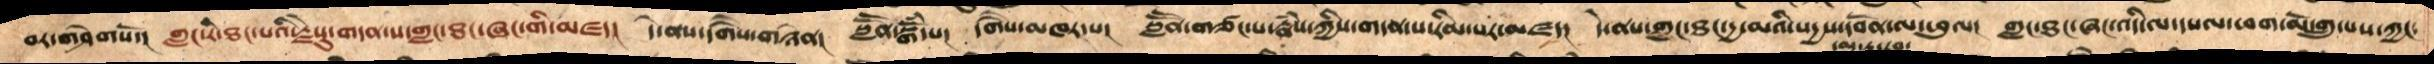བར་གཤེགསོ་།  གླང་རི་ཐང་པའི་རྗེསུ་གདན་ས་གླང་ཐང་ཞང་གི་མཛད།  དེ་ནས་དགཻས་གཉེན།  སླཽན་སྒོཾ་པ། དགཻས་མཁར་པ།  སླཽན་གཙང་པ་རྣཾས་ཀྱིས་གདན་ས་རིམ་པར་མཛད།  དེ་ནས་གླང་ཐང་དྱ་མའི་སདྱས་དབོན་ལ་ཕུལ།  གླང་ཐང་ཞང་འདི་ལ་དཔལ་ཕག་མོ་གྲུ་པས་ཀྱང་
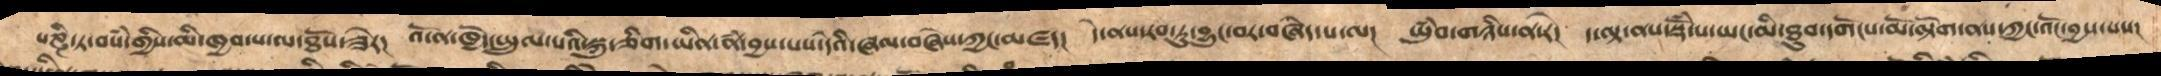པཎྜི་ཏ་བསཾ་གྱིས་མི་ཁྱབ་པ་ལ་ཐོས་ཟེར།  འོ་ན་ཁྱོད་སྤྲུལ་པའི་སྐུ་ཅིག་ཡིན་ནཾ་བྱས་པས་དེའི་ཞལ་བཞེས་ཀྱང་མཛད།  དེ་ནས་རབ་ཏུ་བྱུང་བཞེད་པ་ལ།  ཡུཾབ་གཉིས་ན་རེ།  ད་ལྟ་ནས་སྡོཾ་པ་ཡང་མི་ཐུབ་དགོངས་མོ་ལྟོག་ནས་ཀྱང་འོང་བྱས་པས།
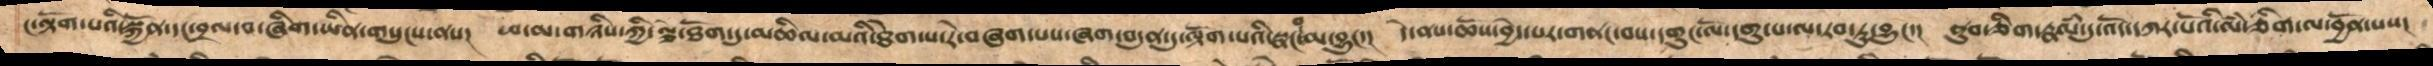ང་ལྟོག་པའི་སྐྱོན་དང་བྲལ་བ་ཞིག་ཡིན་གསུངས་ནས།  ཕ་མ་གཉིས་ཀྱི་ལྕེ་ཐོག་དུ་མཆིལ་མའི་ཐེག་པ་རེ་བཞག་པས་ཞག་བདུན་དུ་ལྟོག་པའི་སྣང་བ་མ་བྱུང་། དེ་ནས་ཆོས་བྱེད་པར་གནང་བས་དགུང་ལོ་དགུ་པ་ལ་རབ་ཏུ་བྱུང་། ནུབ་ཅིག་རྣལཾ་དུ་འོད་དཀར་པོའི་ལཾ་ཅིག་ལ་བྱོན་པས།
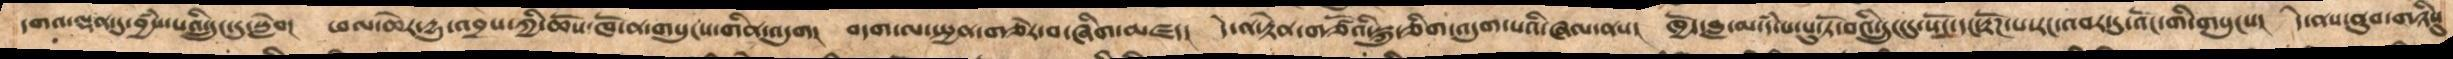དགའ་ལྡན་དུ་བྱཾས་པའི་དྲུང་དུ་སླེབ།  ཕལ་ཆེར་དྱུ་འབྲས་ཀྱི་ཆོས་ཁོ་ན་གསུངས་གིན་འདུག  བདག་ལ་སྤྱན་གཅེར་བ་ཞིག་མཛད།  དེ་ན་རྟེན་གཙོའི་སྐུ་ཅིག་འདུག་པའི་ཞལ་ནས།  ཁྱོད་བླ་མ་དཾ་པ་པུ་ཏོ་བའི་དྲུང་དུ་སོང་དང་རྟོཌ་པ་རང་འབར་དུ་འོང་གི་གསུངས།  དེ་ནས་ནུབ་གཉིསུ་
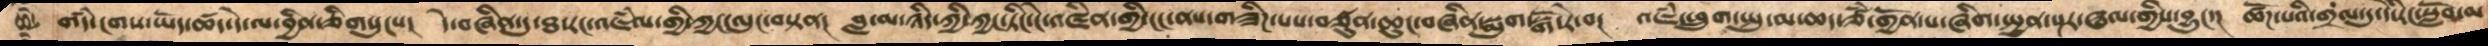གདཾ་ངགས་ཡོད་ཚད་དེ་ལ་བྱིན་ཅིགསུངས།  དེ་བཞིན་དུ་ཐ་རང་འཇཾལ་གྱི་ཀྱང་ལུང་བསྟན། བླ་མ་ཉིད་ཀྱི་ཀྱང་ཏིང་ངེ་འཛིན་གྱི་ངང་ནས་གཟིཌ་པས་བཙུན་ཆུང་བཞིན་སྨུག་སྒོ་རེ་བ།  འཇཾ་ཕྲུག་སྤུ་མ་ཆད་ཙཾ་གྱོན་པ་ཞིག་སྤྱན་སྔར་ཝལ་གྱིས་བྱུང་།  ཚོཌ་པའི་གྲལ་དུ་དེ་རིང་སློབ་མ
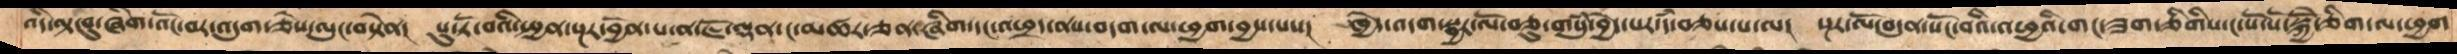འདི་ལྟ་བུ་ཞིག་འོང་བར་འདུག་ཅེས་ལུང་བསྟེན།  པུ་ཏོ་བའི་སྤྱན་སྔར་བྱོན་པ་ན་ཇོ་ལྡན་ང་མཚར་ཅན་ཞིག་དང་འཕྲད་ནས་བདག་ལ་ཕྱག་བྱས་པས།  ཁྱེད་འདག་སྦྱར་ལོ་བཅུ་གསུཾ་བྱེད་པར་དམ་བཅས་པ་ལ།  སྔར་ལོ་བདུན་སོང་བའི་འཕྱའི་གང་ཟག་ཅིགིས་ང་སོ་སོ་སྐྱེོ་ཅིག་ལ་ཕྱག་
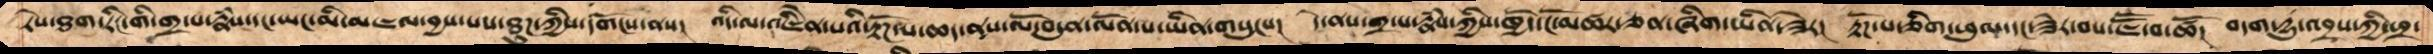རེས་ཐག་རིང་གི་གྲ་པ་རྣཾས་དང་ཡང་མི་མཇལ་བྱས་པས་ཐུཌ་ཀྱིས་དགོངས་ནས།  འདི་ལ་འཇིེན་པའི་རྟོཌ་པ་ཆད་ནས་ལོ་བདུན་ལོན་པ་ཡིན་གསུངས།  དེ་ནས་གྲ་པ་རྣཾས་ཀྱིས་ཁྱོད་ངོ་མཚར་ཅན་ཞིག་ཡིན་ཟེར།  རྟོཌ་པ་ཅིག་ཕུལ་དང་ཟེར་བས་ཇཽ་ཚོ། བདག་དྱུ་འབྲས་ཀྱི་ཕྲ་
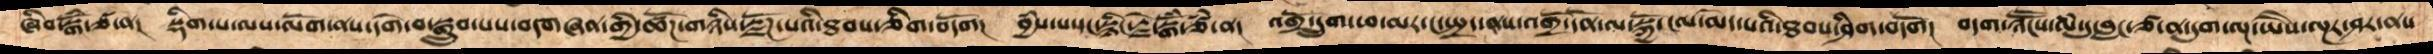ཞིབ་སྒོཾ་ཙ་ན།  སྡིག་པ་ལས་ལོག་ནས་དགེ་བ་སྒྲུབ་པས་བདགཞན་གྱི་ཚོཌ་གཉིས་སྫོཌ་པའི་ཐབས་ཅིག་བདོག།  བྱཾས་པ་དང་རྙིང་རྗེ་སྒོཾ་ཙཾ་ན།  འགྲོ་དྲུག་ཕ་མར་ངོ་སྤྲད་ནས་འགྲོ་དོན་ལ་སྐྱོ་ངལ་མེད་པའི་ཐབས་ཤིག་བདོག། བདག་ཉཽངས་ལཾ་དུ་བླང་ཙ་ན་དུག་ལྔ་ཡཻས་ལྔར་ཤར་ནས་
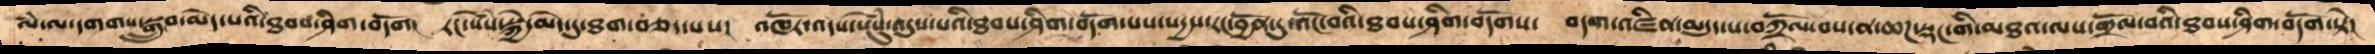ལཾ་ལ་དགགས་སྒྲུབ་མེད་པའི་ཐབས་ཤིག་བདགོ།  རང་སེཾས་སྐྱེ་མེད་དུ་ཐག་བཅད་པས།  འཁོར་འདས་སེཾསུ་འདུས་པའི་ཐབས་ཤིག་བདོག་པས་སདྱས་རང་བྱོན་དུ་འོང་བའི་ཐབས་ཤིག་བདགོས་  བདག་འཛིན་མདུད་པ་བཀྲོལ་བས་ན་ཆཌ་སྡང་གི་མཐའ་ལས་གྲོལ་བའི་ཐབས་ཤིག་བདོག་སྟེ།
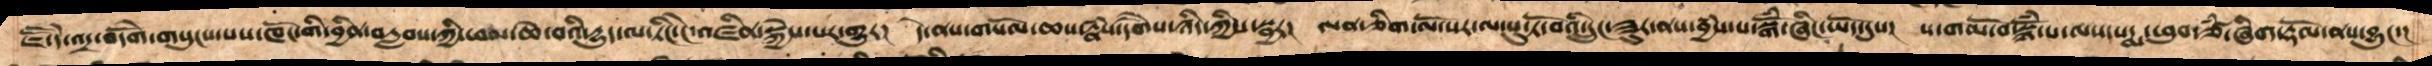ཇཽ་དེ་འདྲ་བདེོག་གསུངས་པས་ཁོང་གི་བྱིན་བརླབས་ཀྱི་ཕལ་ཆེ་བའི་དྱུད་ལ་ཏིང་ངེ་འཛིན་སྐྱེས་པར་གྱུར།  དེ་ནས་གསོལ་ཆས་རྣཾས་དགཻས་ཉིད་ཀྱིས་སྦྱར།  ལན་ཅིག་ལོ་སར་ལ་པུ་ཏོ་བའི་དྲུང་ཟུར་ནས་བྱཾས་པ་བསྒོཾ་ཞིང་ཡོད་དུས།  ས་གཡོ་བ་སྙོཾ་པ་ལས་པདྨ་ཕུབ་ཙཾ་ཞིག་རྡོལ་ནས་བྱུང་།
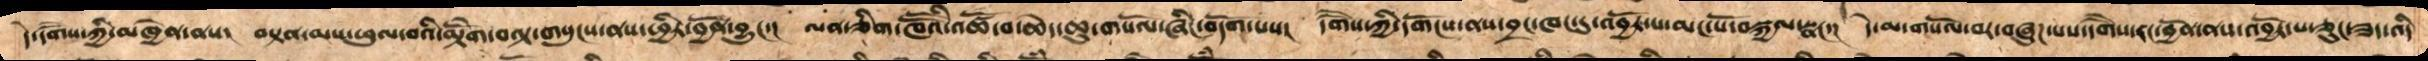དེ་དགཻས་ཀྱི་མཁྱེན་ནས།  བསྟན་མས་ཕུལ་བའི་མྟེོག་བལྟ་གསུངས་ནས་ཕྱིར་བྱོན་བྱུང་།  ལན་ཅིག་ཁཽའི་འཚོ་བ་ཆེད་ཆུ་གསོལ་ཞིང་བདོག་པས།  དགཻས་ཀྱི་དགོངས་ནས་བྲང་ཁང་དུ་འབྱོར་པ་མང་པོ་བསྐྱལ་སྣང་།  དེ་མ་གསོལ་བར་བཞུཌ་པས་དགཻས་རང་བྱོན་ནས་འབྱོར་པ་ཅུང་ཟད་འདི
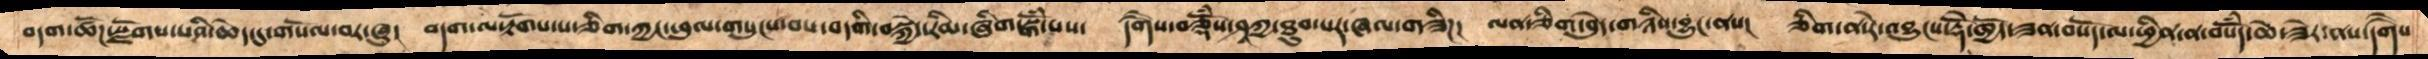བདག་ཚོཌ་སྫོགས་པའི་ཆེད་དུ་གསོལ་བར་ཞུ།  བདག་ལ་རྟོགས་པ་ཅིག་ཀྱང་ཕུལ་གསུངས་བས་བདགི་བསྐྱེད་རིམ་ཞིག་བསྒོཾ་པས།  དགཻས་བཅྡོཾས་ཤཱཀྱ་ཐུབ་པར་ཞལ་གཟིཌ།  ལན་ཅིག་བེུད་གཉིས་བྱུང་ནས།  ཅིག་ན་རེ་འབྱུངས་རྡོེ་ཁྱོད་ཟན་བསོད་ལ་ཕྱིན་ན་བསོྃད་ཆེ་ཟེར་ནས་དགཻས
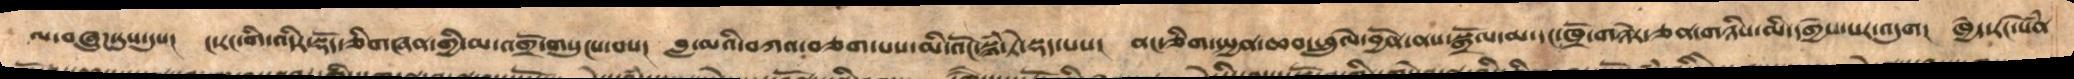ལ་བཞུཌ་དུས་དུས།  ང་རང་གི་འདིར་སྡོད་ཅིག་གཞན་གྱི་མ་འགྲོ་གསུངས་བས།  བླ་མའི་བཀའ་བཅག་པས་མི་འོང་སྙཾ་ཏེ་སྡད་པས།  ནང་གཅིག་སྤྱན་ཆབ་ཕྲུལེ་བྱོན་ནས་སྒྲོལ་མ་དང་ཁྲོ་གཉེར་ཅན་གཉིས་མི་དགྱེས་པར་འདུག།  ཁྱེད་རང་སེཾན
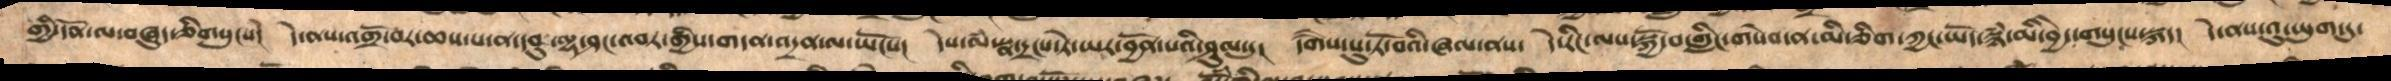གྱི་དོན་ལ་བཞུད་ཅིགསུངས།  དེ་ནས་འགྲོ་བར་ཆས་པ་ན་དབུ་ལྷ་ཤང་འབར་གྱིས་གདན་འདྲན་ལ་ཡོངས།  དེས་ལཾ་སྣ་དྲངས་ཏེ་ཡར་བྱོན་པའི་ཤུལ་དུ།  དགཻས་པུ་ཏོ་བའི་ཞལ་ནས།  དེ་རིང་ལས་སྐྱོ་བ་གླིང་གསེབ་ན་མི་ཅིག་ཀྱང་ཡོད་སྙཾ་མི་བྱེད་གསུངས་སྐད།  དེ་ནས་འུ་ཡུག་དུ་
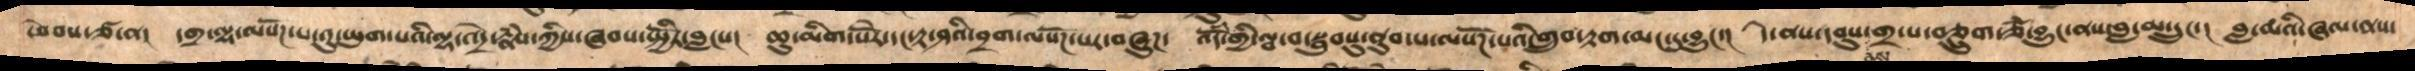ཕེབས་ཙ་ན། དགྲ་ལྷ་ལ་སོཌ་པ་འུ་ཡུག་པའི་ལྷ་འདྲེ་རྣཾས་ཀྱིས་ཞབས་སྤྱོིར་བླངས། ཆུ་མིག་སོེར་དང་རྟ་ཤའི་བྲག་ལ་སོཌ་པར་བཞུཌ། འདོཾས་གྱི་ལྦ་བ་སྦུབསུ་ནུབ་པ་ལསོཌ་པའི་གྲུབ་རྟག་མང་དུ་བྱུང་། དེ་ནས་དབུས་ནས་གྲ་པ་བཅྲུག་ཙཾ་བྱུང་ནས་བླ་མ་དྲུང་། བླ་མའི་ཞལ་ནས་
